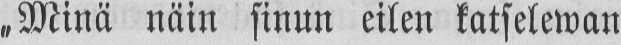„Minä näin sinun eilen katselewan
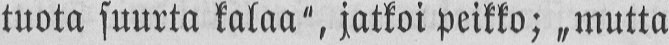tuota suurta kalaa", jatkoi peikko; „mutta
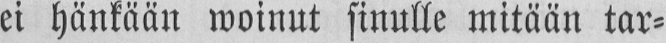ei hänkään woinut sinulle mitään tar-
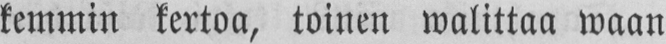kemmin kertoa, toinen walittaa waan
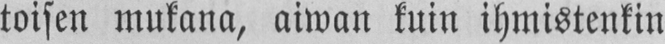toisen mukana, aiwan kuin ihmistenkin
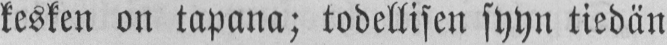kesken on tapana; todellisen syyn tiedän
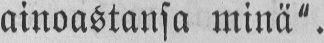ainoastansa minä".
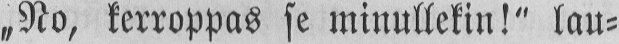„No, kerroppas se minullekin!" lau-
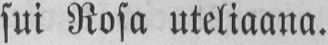sui Rosa uteliaana.
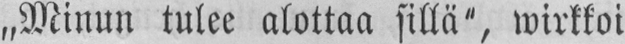„Minun tulee alottaa sillä", wirkkoi
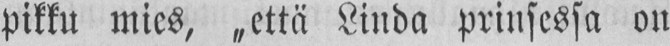pikku mies, „että Linda prinsessa on
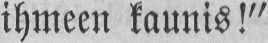ihmeen kaunis!"
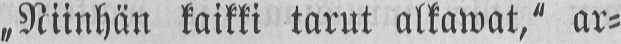„Niinhän kaikki tarut alkawat," ar-
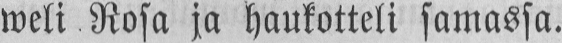weli Rosa ja haukotteli samassa.
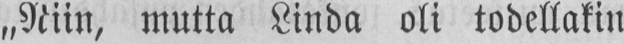„Niin, mutta Linda oli todellakin
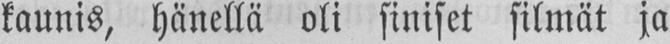kaunis, hänellä oli siniset silmät ja
